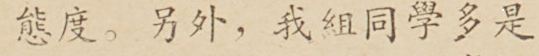態度。另外，我組同學多是
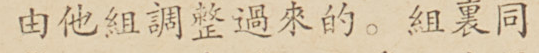由他組調整過來的。組裏同
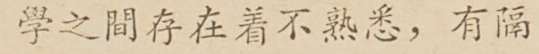學之間存在着不熟悉，有隔
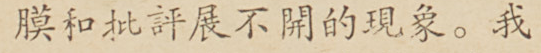膜和批判展不開的現象。我
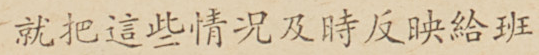就把這些情況即使反映給班
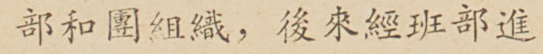部和團組織，後來經班部進
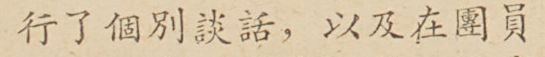行了個別談話，以及在團員
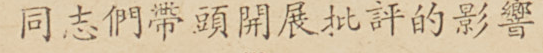同志們帶頭開展批判的影響
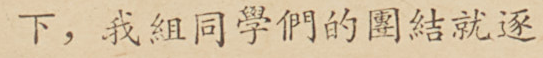下，我組同學們的團結就逐
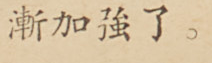漸加強了。
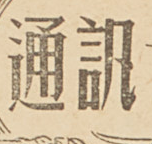通訊
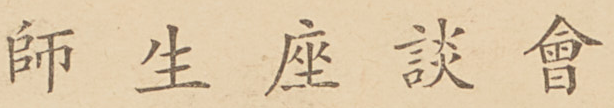師 生 座 談 會
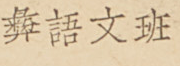彝語文班
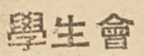學生會
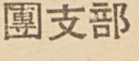團支部
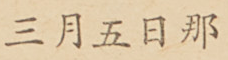三月五日那
